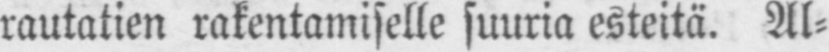rautatien rakentamiselle suuria esteitä. Al-
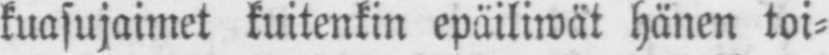kuasujaimet kuitenkin epäiliwät hänen toi-
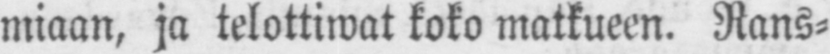miaan, ja telottiwat koko matkueen. Rans-
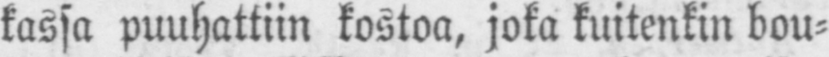kassa puuhattiin kostoa, joka kuitenkin bou-
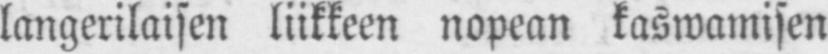langerilaisen liikkeen nopean kaswamisen
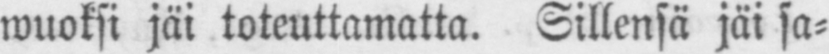wuoksi jäi toteuttamatta. Sillensä jäi sa-
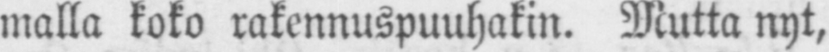malla koko rakennuspuuhakin. Mutta nyt,
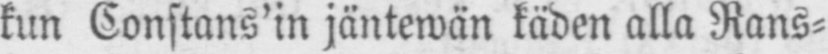kun Constans'in jäntewän käden alla Rans-
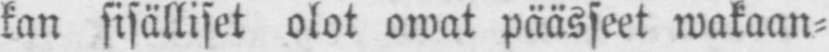kan sisälliset olot owat päässeet wakaan-
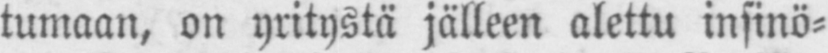tumaan, on yritystä jälleen alettu insinö-
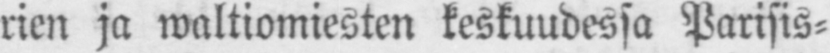rien ja waltiomiesten keskuudessa Parisis-
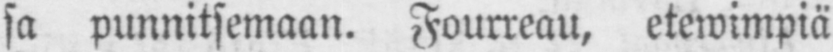sa punnitsemaan. Fourreau, etewimpiä
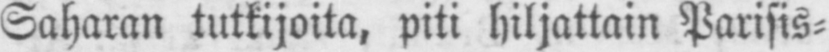Saharan tutkijoita, piti hiljattain Parisis-
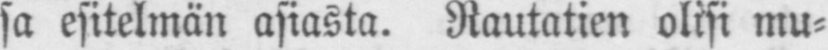sa esitelmän asiasta. Rautatien olisi mu-
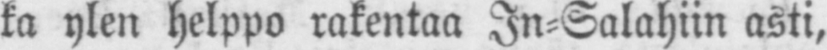ka ylen helppo rakentaa In-Salahiin asti,
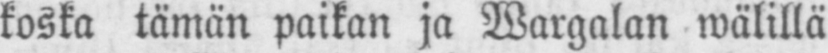koska tämän paikan ja Wargalan wälillä
